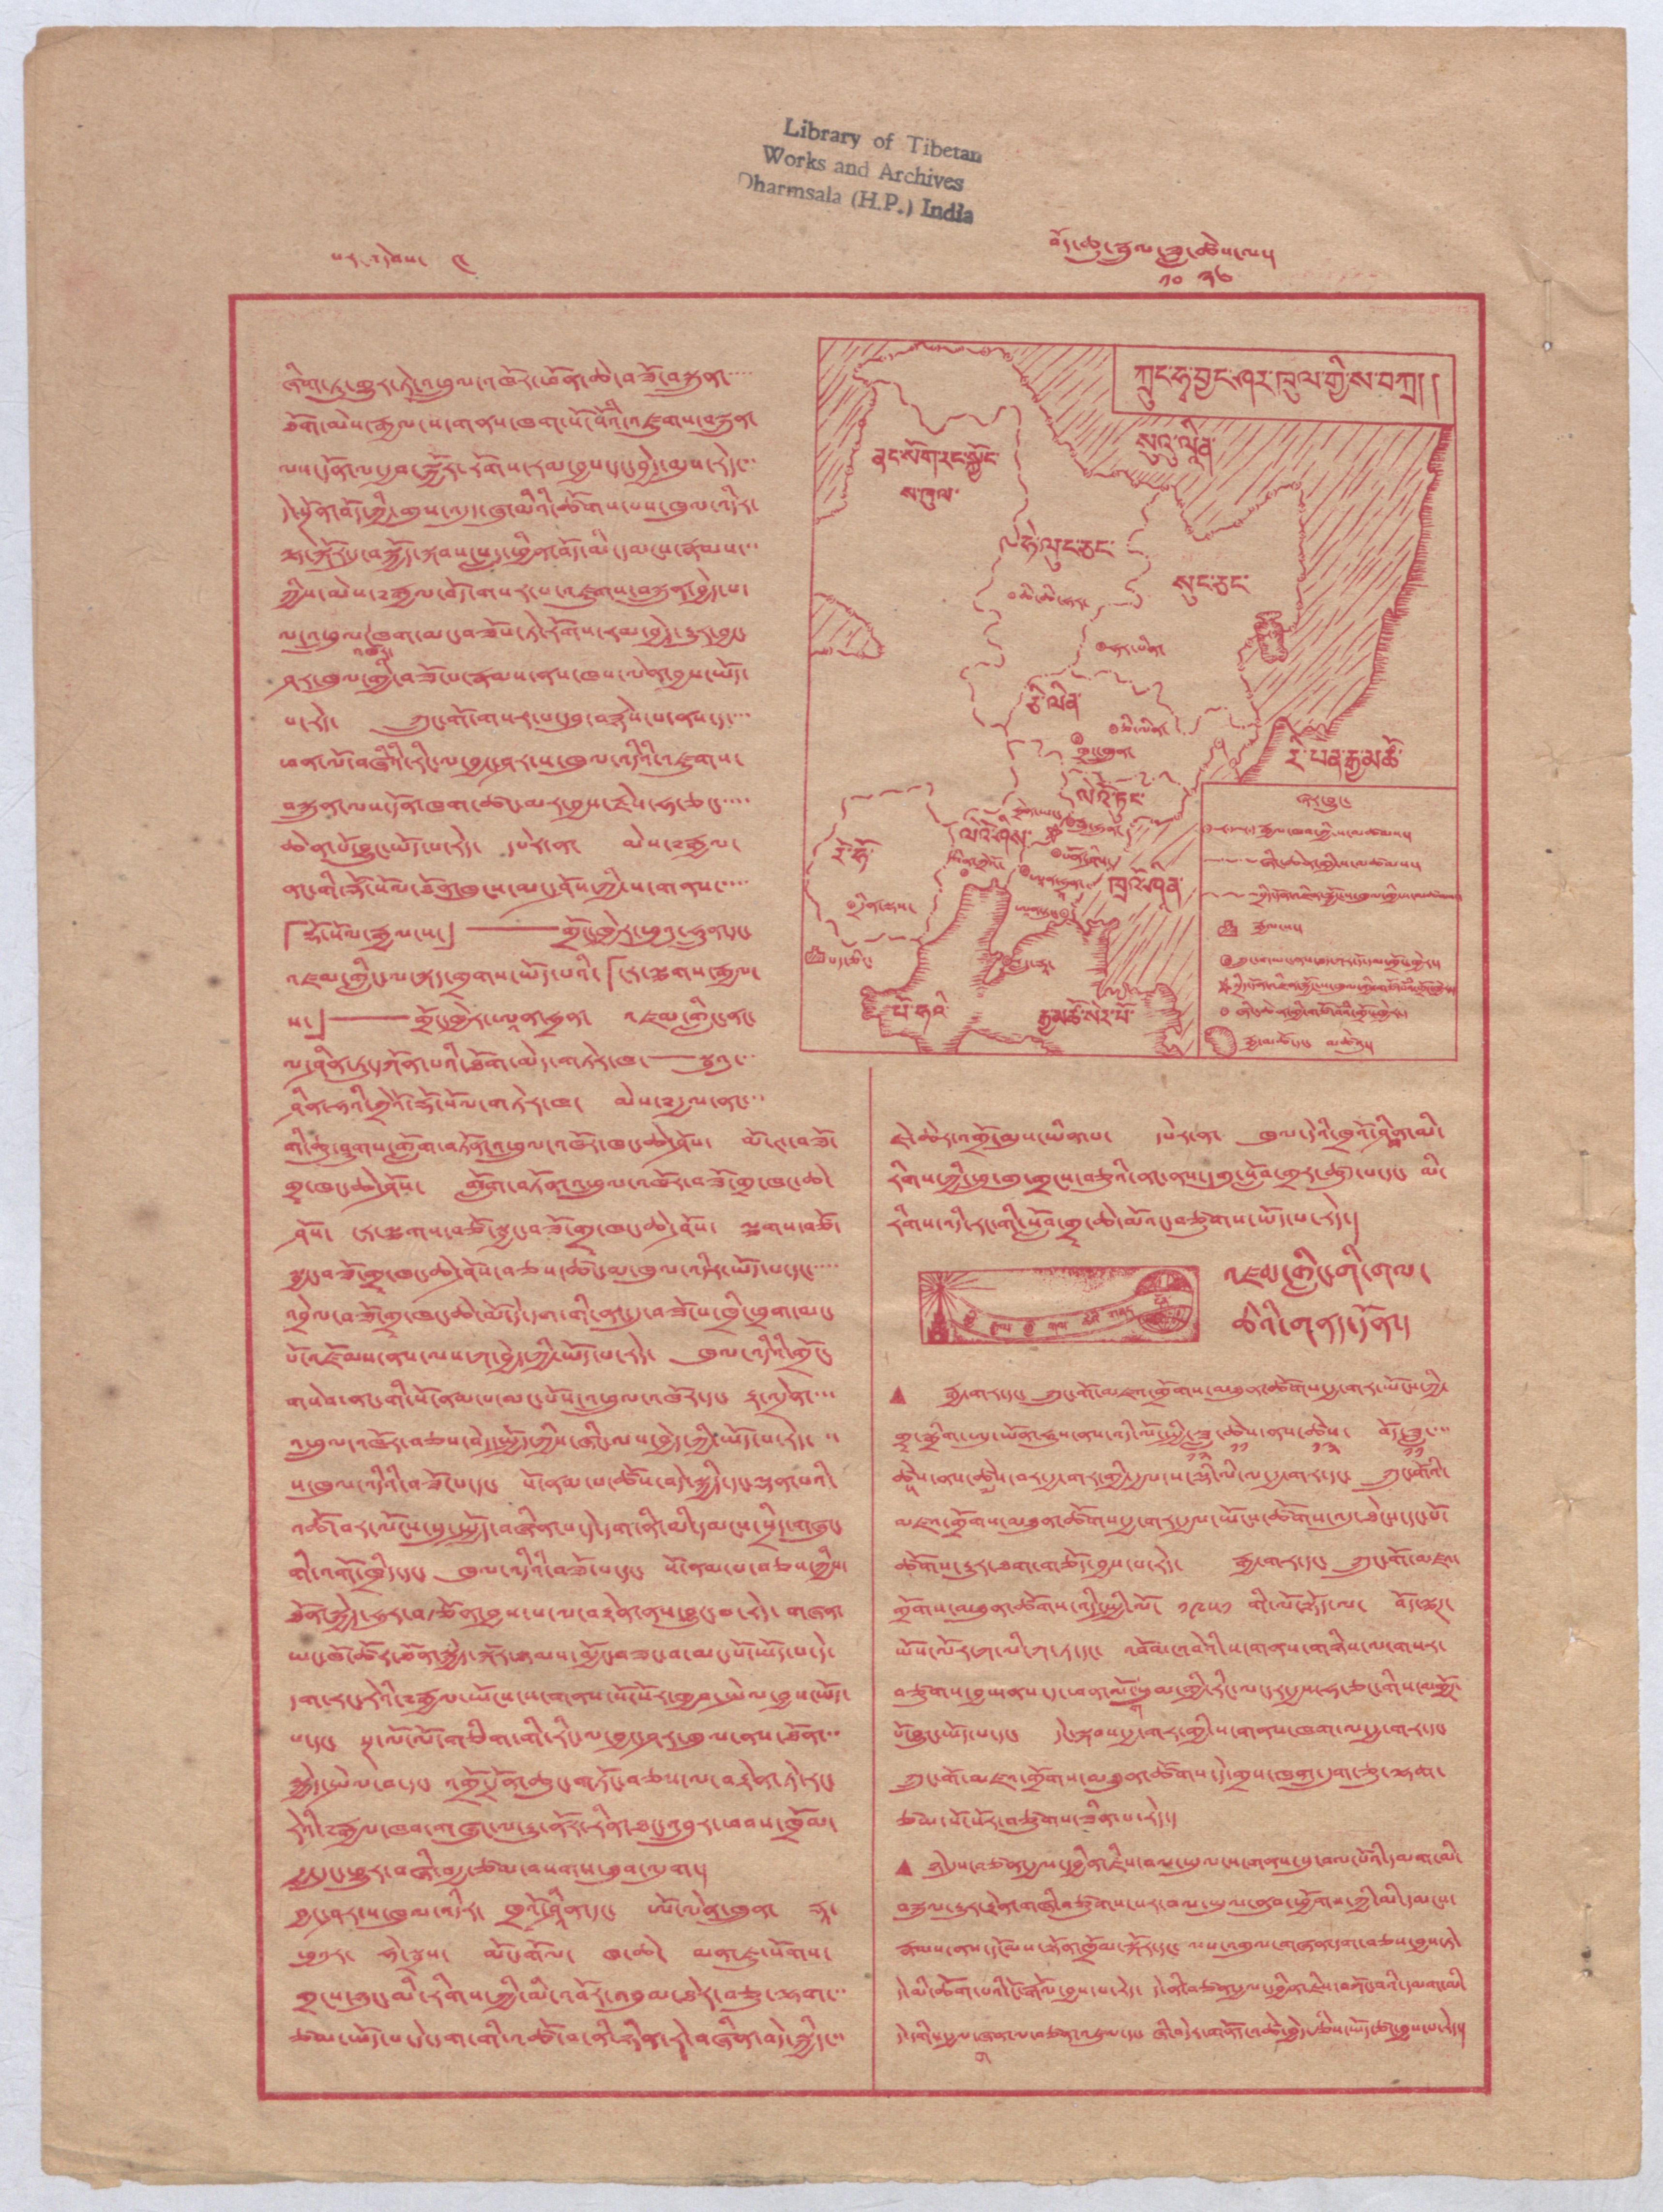པར་འདེབས་ ༤ བོད་ཆུ་སྦྲུལ་ཟླ་
༡༠
ཚེས་
༢༦
ལ།
ཞིག་ཏུ་གྱུར་ཏེ་འཕྲུལ་འཁོར་ཕོན་ཆེ་བཟོ་བསྐྲུན་་་་་
ཐོག་མེས་རྒྱལ་ས་གནས་ཁག་སོ་སོའི་འཛུགས་བསྐྲུན་
ལས་དོན་ལ་རྒྱབ་སྐྱོར་རོགས་རམ་དང་བྱས་དང་བྱེད་མུས་རེད།་་
དེ་སྔོན་བོད་ཀྱི་གུས་འདུད་ཞུ་མིའི་ཚོགས་པས་ཁུལ་འདིར་
ལྷ་སྐོར་དུ་བསྐྱོད་སྐབས་སླད་ཕྱིན་བོད་མི་དམངས་རྣམས་་
ཀྱིས་མེས་༸རྒྱལ་བོད་གསར་པ་འཛུགས་བསྐྲུན་བྱེད་པ་
ལ་འཕྲུལ་
འཁོར་
ཁག་མང་བཟོས་ཏེ་རོགས་རམ་བྱེད་རྒྱུར་བྱང་
ཤར་ཁུལ་གྱི་བཟོ་པ་རྣམས་ནས་ཁས་ལེན་བྱས་ཡོད་
པ་རེད་ ཀྲུང་གོ་གསར་པ་དབུ་བརྙེས་པ་ནས་ད་་་
ཕན་ལོ་བཞིའི་རིང་ལ་བྱང་ཤར་ས་ཁུལ་འདིའི་འཛུགས་
བསྐྲུན་ལས་དོན་ཁག་ཚང་མར་བྱས་རྗེས་ཧ་ཅང་་་་
ཆེན་པོ་བྱུང་ཡོད་པ་རེད་ དཔེར་ན་ མེས་༸རྒྱལ་
ནང་གི་རྡོ་སོལ་ཐོན་ཁུངས་མང་ཤོས་ཀྱི་ས་གནས་་་་
རྡོ་སོལ་རྒྱལ་ས་」—གྲོང་ཁྱེར་ཕུའུ་ཧྲུན་དང་
འཛམ་གླིང་ལ་སྐད་གྲགས་ཡོད་པའི་「ངར་ལྕགས་རྒྱལ་
ས་」—གྲོང་ཁྱེར་ཨཱན་ཧྲན་ འཛམ་གླིང་ནང་
ལ་ཤིན་ཏུ་དཀོན་པའི་ཐོག་མེད་གཏེར་ཁ་—སྦུའུ་་་
ཤིན་ཧའི་ཀྲེའོ་རྡོ་སོལ་གཏེར་ཁ་ མེས་༸རྒྱལ་ནང་
གི་ཆུ་ཤུགས་གློག་བཏོན་འཕྲུལ་འཁོར་ཁང་ཆེ་ཤོས་ མོ་ཊ་བཟོ་
གྲྭ་ཁང་ཆེ་ཤོས་ གློག་བཏོན་འཕྲུལ་འཁོར་བཟོ་གྲ་ཁང་ཆེ་
ཤོས་ ངར་ལྕགས་བཙོ་སྦྱང་བཟོ་གྲྭ་ཁང་ཆེ་ཤོས་ ལྕགས་བཙོ་
སྦྱང་བཟོ་གྲྭ་ཁང་ཆེ་ཤོས་བཅས་ཚང་མ་ཁུལ་འདིར་ཡོད་པ་དང་་་་་
འབྲེལ་བཟོ་གྲྭ་ཁང་ཆེ་མོ་དེ་དག་གི་ནང་དུ་བཟོ་པ་ཁྲི་ཕྲག་མང་
པོ་འཛོམས་ནས་ལས་ཀ་བྱེད་ཀྱི་ཡོད་པ་རེད་ ཁུལ་འདིའི་གྲོང་
གསེབ་ནང་གི་སོ་ནམ་པ་མང་པོས་འཕྲུལ་འཁོར་དང་ རྟ་འདྲེན་་་
འཕྲུལ་འཁོར་བཅས་བདེ་སྤྱོད་ཀྱིས་ཞིང་ལས་བྱེད་ཀྱི་ཡོད་པ་རེད་་་
ས་ཁུལ་འདིའི་བཟོ་པ་དང་ སོ་ནམ་པ་ཚོས་བདེ་སྐྱིད་དང་ལྡན་པའི་
འཚོ་བར་ལོངས་སུ་སྤྱོད་བཞིན་པ་དེ་དག་ནི་མི་དམངས་སྲིད་གཞུང་
གི་འགོ་ཁྲིད་དང་ ཁུལ་འདིའི་བཟོ་པ་དང་ སོ་ནམ་བཅས་ཀྱིས་
ཐོན་སྐྱེད་ཧུར་བརྩོན་བྱས་པ་ལ་བརྟེན་ནས་བྱུང་བ་རེད་ གཞན་
ཡང་ཁོ་ཚོར་ཐོན་སྐྱེད་སྐོར་ཉམས་མྱོང་བཟང་བ་མང་པོ་ཡོད་པ་དེ་
དག་རང་རེའི་༸རྒྱལ་ཡོངས་གནས་སོ་སོར་ཁྱབ་སྤེལ་བྱས་ཡོད་
པ་དང་ སྔ་ལོ་ལོ་གཅིག་གི་རིང་ལ་བྱ་ཤར་ཁུལ་ནས་ཐོན་་
སྐྱེད་སྤེལ་བ་དང་ འགྲོ་དྲོན་ཆུང་གཏོང་བཅས་ལ་བརྟེན་ཏེ་རང་
རེའི་༸རྒྱལ་ཁབ་གཞུང་རྒྱུ་ནོར་རིན་ཐང་འབྲུལ་ཕབས་ཁྲོམ་
རྒྱ་དུང་ཕྱུར་བཞི་བརྒྱ་ཙམ་བསགས་ཐུག་ལུག།
བྱང་ཤར་ས་ཁུལ་འདིར་ ཁྲའོ་ཤིན་དང་ ཨོ་ལེན་ཁྲུན་ ཏཱ་
ཕུའུར་ ཧྲེ་སྦྲས་ མོང་གོལ་ ཁ་ཆེ་ མན་ཇུ་སོགས་
གྲངས་ཉུང་མི་རིགས་ཀྱི་མི་འབོར་ཐེར་བཟུ་ལྷག་་་
ཙམ་ཡོད་པ་དེ་དག་གི་འཚོ་བ་ནི་ཉིན་རེ་བཞིན་བདེ་སྐྱིད་་་
ཀྲུང་ཧྭ་བྱང་ཤར་ཁུལ་གྱི་ས་བཀྲ།།
སྲུའུ་ལཱིན་
ནང་སོག་རང་སྐྱོང་
ས་ཁུལ་
ཧེ་ལུང་ཅང་
ཆི་ཆི་ཧར་
སུང་ཅང་
ཧར་པིན་
ཅི་ལིན་
ཅི་ལིན་
ཁྲང་ཁྲུན་
རི་པན་རྒྱ་མཚོ་
ལེའོ་ཏུང་
ཧྥུ་ཧྲུན་
པོན་ཤིས་
ཨཱན་ཧྲཱན་
ཨཱན་ཏུང་
ཧྲེན་ཡང་
ལེའོ་ཤིས་
ཅིན་ཀྲོའོ་
རོ་ཧོ་
དྲིན་ལྟས་
ཁྲའོ་ཤཱིན་
པད་ཅིང་
རླུད་ཏཱ་
པོ་ཧའི་
རྒྱ་མཚོ་སེར་པོ་
ཞར་བྱུང་
རྒྱལ་ཁབ་ཀྱི་ས་མཚམས།
ཞིང་ཆེན་གྱི་ས་མཚམས།
སྲིད་དོན་འཛིན་སྐྱོང་ས་ཁུལ་གྱི་ས་མཚམས།
རྒྱལ་ས།
ཀྲུང་གཡང་ནས་ཐད་ཀར་དོ་དམ་གྲོང་ཁྱེར།
★སྲིད་དོན་འཛིན་སྐྱོང་ས་ཁུལ་གྱི་གཙོ་བོའི་གྲོང་ཁྱེར།
ཞིང་ཆེན་གྱི་གཙོ་བོའི་གྲོང་ཁྱེར།
རྒྱ་མཚོ་དང་མཚེའུ།
ཇེ་ཆེར་འགྲོ་མུས་ཡིན་པ་ དཔེར་ན་ ཁུལ་དེའི་ཁྲོའོ་ཤྰིན་མི་
རིགས་ཀྱི་ཕྲུ་གུ་གྲངས་བཅུའི་ནང་ནས་དགུ་སློབ་གྲར་ཚུད་པ་དང་ མི་
རིགས་འདི་རང་གི་སློབ་གྲྭ་ཆེ་མོའང་བཙུགས་པ་ཡོད་པ་རེད།
འཛམ་གླིང་གི་གལ་
ཆེའི་གནད་དོན།
ཕྱི་རྒྱལ་ཕྱི་གལ་ཆེའི་གནད་དོན་
▲ རྒྱ་གར་དང་ཀྲུང་གོ་མཛའ་གྲོགས་མཐུན་ཚོགས་རྒྱ་གར་ཡོང་ཀྱི་
གྲྭ་སྒྲིག་ཨུ་ཡོན་ཧུས་ནས་འདི་ལོ་སྤྱི་ཟླ་
༡༢
ཚེས་
༡༡
ནས་ཚེས་
༡༣
བོད་ཟླ་
༡༡
་་་
ཚེས་
༥
ནས་ཚེས་
༧
བར་རྒྱ་གར་གྱི་རྒྱལ་ས་ལྟི་ལི་ལ་རྒྱ་གར་དང་ ཀྲུང་གོའི་
འཛམ་གྲོགས་མཐུན་ཚོགས་རྒྱ་གར་རྒྱལ་ཡོངས་ཚོགས་འདུ་ཐེངས་དང་པོ་
ཚོགས་རྒྱུར་ཐག་གཅོད་བྱས་པ་རེད་ རྒྱ་གར་དང་ ཀྲུང་གོ་མཛའ་
གྲོགས་མཐུན་ཚོགས་འདི་སྤྱི་ལོ་ ༡༩༥༡ ་གི་ལོ་སྟོད་ལ་ བོད་ལྕཌ་
ཡོས་ལོར་ཀ་ལི་ཀ་ཏ་དང་ འབོམ་འབེའི་ས་གནས་གཉིས་ལ་གསར་
བཙུགས་བྱས་ནས་ད་ཕན་ལོ་གསུམ་གྱི་རིང་ལ་དར་རྒྱས་ཧ་ཅང་གིས་མགྱོཌ་
པོ་བྱུང་ཡོད་པ་དང་ དེང་སྐབས་རྒྱ་གར་གྱི་ས་གནས་ཁག་ལ་རྒྱ་གར་དང་
ཀྲུང་གོ་མཛའ་གྲོགས་མཐུན་ཚོགས་དེ་གྲས་ཁག་དྲུག་ཅུ་ལྷག་
ཙམ་སོ་སོར་བཙུགས་ཟིན་པ་རེད།
▲ ཉེ་དུས་བཙན་རྒྱལ་དབྱིན་ཇིས་བལ་ཡུལ་ས་གནས་སུ་བལ་པོའི་དམག་མི་
བསྐུལ་རྒྱུར་རྟེན་གཞི་བཙུགས་པར་བལ་ཡུལ་ནུབ་ཕྱོགས་ཀྱི་མི་དམངས་
རྣམས་ནས་དངོམས་སྟོན་ཁྲོམ་སྐོར་དང་ལས་འགུལ་གཞན་དག་བཅས་བྱས་ཏེ་
དེ་མི་ཆོག་པའི་ངོ་རྒོལ་བྱས་པ་རེད་ དེ་ནི་བཙན་རྒྱལང་བྱིན་ཇེས་བཀོང་བའི་དམག་མི་
དེ་དགིས་རྒྱལ་
ག
ཞན་ལ་བཙན་འཛུལ་དང་ཞི་བདེར་གནོད་འཚེ་བྱེད་རྩི་ཡོད་ཙང་བྱས་པ་རེད།
